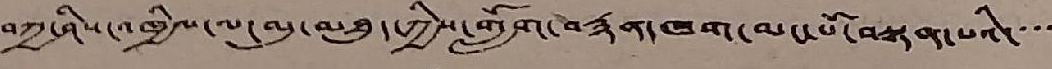བཀྲ་ཤིས་འཁྱིལ་ལ་མུ་མཐུད་ཀྱིས་གློག་བརྙན་ཁག་མང་པོ་བསྟན་པའི་་་་
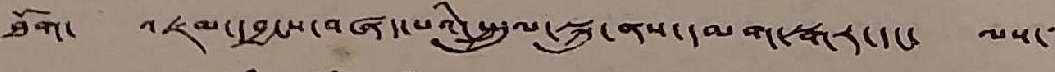ཐོག་ འཇམ་དབྱངས་བཞད་པའི་སྤྲུལ་སྐུ་ནས་དམག་སྒར་དང་ ལས་་་
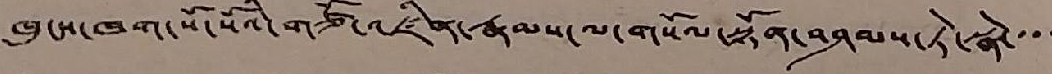ཁུངས་ཁག་སོ་སོའི་གཙོ་འཛིན་རྣམས་ལ་གསོལ་སྟོན་བཤམས་ཏེ་སྣེ་་་་
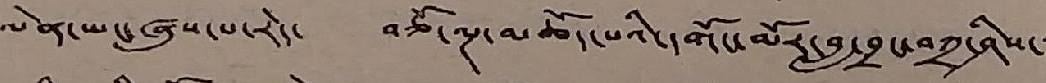ལེན་ཡང་ཞུས་པ་རེད་ བཅོ་ལྔ་མཆོད་པའི་དགོང་མོར་བླ་བྲང་བཀྲ་ཤིས་་
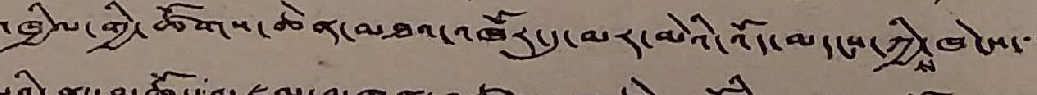འཁྱིལ་གྱི་ཚོགས་ཆེན་མཐའ་འཁོར་དུ་མར་མེའི་འོད་མདངས་ཀྱིས་ཁེངས་་་
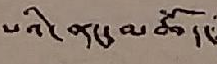པའི་ནང་མཆོད་
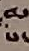པ་
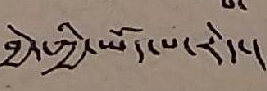བྱེད་ཀྱི་ཡོད་པ་རེད་།
